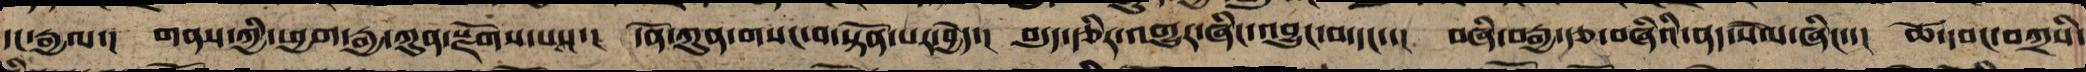དང་རྒྱལ་། གནས་ཀྱི་ཕྱག་རྒྱ་ཀུན་སྫོགས་པས་། དོན་ཀུན་གསང་བ་སྟོན་པར་བྱེད་། བདུད་རྩིར་འགྱུར་ཞིང་འབྱུང་བ་དང་་། བཞི་བརྒྱ་རྩ་བཞིའི་ནད་སེལ་ཞིང་་། ཚེ་དབང་བཀྲིས་
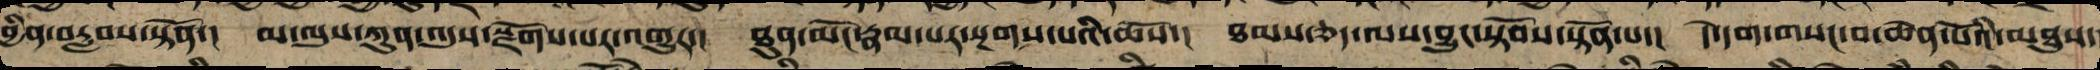བྱིན་་རླབས་སྟོན་། མ་ལུས་ཀུན་འདུས་སྫོགས་པར་གྱུར་། ཐུན་མོང་རྣམ་པར་སྔགས་པའི་མོས་། ཐམས་ཅད་ལས་བྱུང་སྟོབས་སྟོན་པ་། དེ་དག་གསང་བ་ཆེན་པོའི་མཐུས་
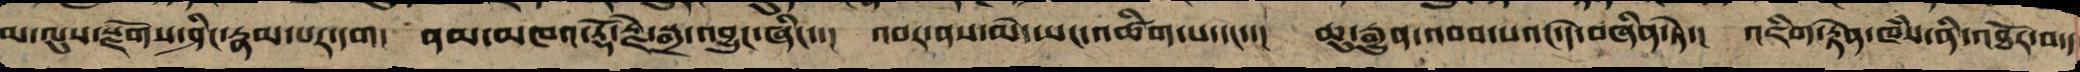མ་ལུས་སྫོགས་ཤིང་རྣམ་པར་དག། ནམ་མཁའ་རྡོ་རྗེ་སྒྲ་འབྱུང་ཞིང་་། འབར་ནས་མེ་ཡང་འཚིག་པ་དང་་། ཆུ་རྒྱུན་འབབ་པའང་དེ་བཞིན་ཏེ་། འཇིག་རྟེན་ཁཾས་ནི་འཐོར་བ་ད
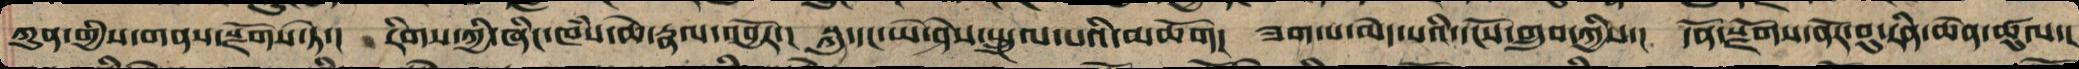ཀུན་གྱིས་གནས་སྫོགས་ཏེ་། རིགས་ཀྱི་ཞིང་ཁཾས་ཆེ་རྣལ་འབྱོར་། སྐུ་དང་ཡེ་ཤེས་སྤྲུལ་པའི་མཆོག། ཟག་པ་མེད་པའི་དངོས་གྲུབ་ཀྱིས་། དོན་སྫོགས་ནོར་བུ་རིན་ཆེན་ཚུལ་།
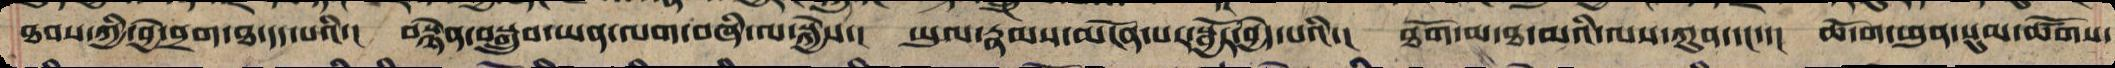ཐབས་ཀྱི་བྱེ་བྲག་ཐ་དད་པའི་། བསྙེན་བསྒྲུབ་ཡན་ལག་བཞི་ལ་སྐྱེས་། ཡུལ་རྣམས་མངོན་པར་སྦྱོར་བྱེད་པའི་། ཐོག་མ་ཐ་མའི་ལས་ཀུན་དང་་། ཆོ་ག་ཕུན་སུམ་ཚོགས་
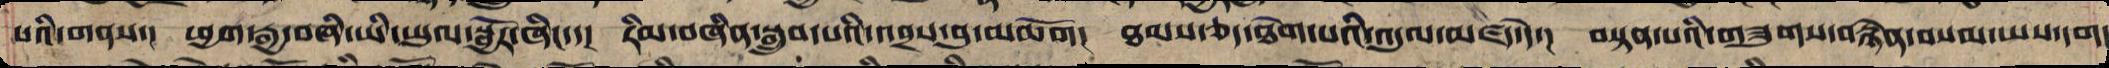པའི་གནས་། ཕྱག་རྒྱ་བཞི་ཡི་ཡུལ་སྦྱོར་ཞིང་་། རིམ་བཞིན་བསྒྲུབ་པའི་འབྲས་བུ་མཆོག། ཐམས་ཅད་ཐེག་པའི་འདུལ་མཛད་དེ་། བསྟན་པའི་གཟུགས་བརྙེན་བསམ་ཡས་དག།
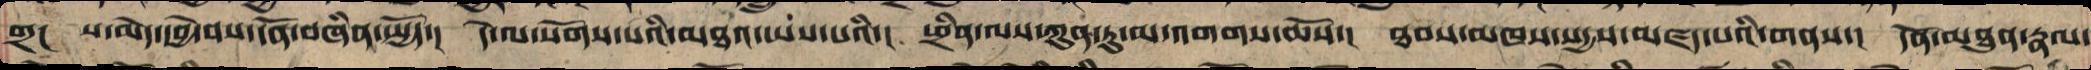གྲང ས་མེད་དབྱེ་བས་དོན་བཞིན་སྤྱོད་། དེ་ལ་སོགས་པའི་མཐའ་ཡས་པའི་། ཕྲིན་ལས་ཀུན་ཏུ་མ་འགགས་ཆོས་། ཐབས་མཁས་སདྱས་མཛད་པའི་གནས་། དོན་མཐུན་རྣལ་
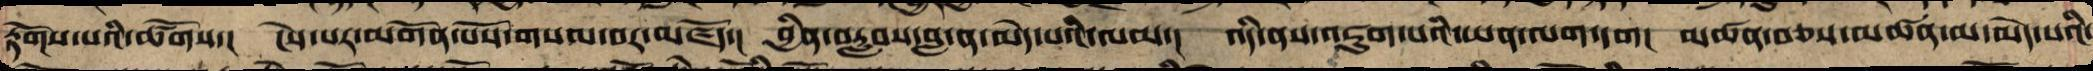རྟོགས་པའི་ཚོགས་། ངེས་པར་མགོན་པོས་བསལ་བར་མཛོད་། བྱིན་བརླབས་བླ་ན་མེད་པའི་ལམ་། འདི་ནས་འཇུག་པའི་ཡན་ལག་དག། མཚན་བཅས་མཚན་མ་མེད་པའི་
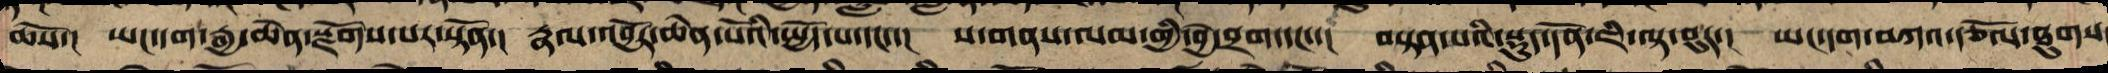ཆོས་། ཡང་དག་རྒྱ་ཆེན་སྫོགས་པར་སྟོན་། རྣལ་འབྱོར་ཆེན་པོའི་སྤྱོད་པ་དང་་། ས་གནས་ལམ་གྱི་བྱེ་བྲག་དང་་། བསྟན་པའི་བསྡུ་དོན་ཇི་ལྟ་བུར་། ཡང་དག་བཀའ་སྩོལ་ཐུགས
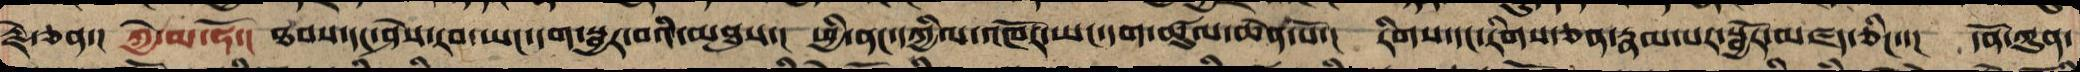རྗེ་ཅན་། ཀྱེ་མ་ཧོ་། ཐབས་དང་ཤེས་རབ་ཡང་དག་སྦྱར་བའི་མཐུས་། ཕྱི་ནང་དཀྱིལ་འཁོར་ཡང་དག་ཚུལ་ཆེན་པོ་། རིགས་དང་རིགས་ཅན་རྣམ་པར་སྦྱོར་མཛད་ཅིང་་། དོན་ཀུན་
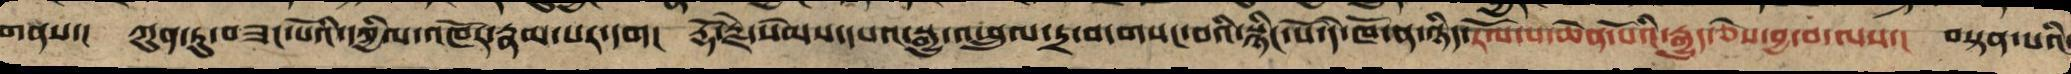གནས་། ཀུན་ཏུ་བཟང་པོའི་དཀྱིལ་འཁོར་རྣམ་པར་དག། རྡོ་རྗེ་སེམས་དཔའ་སྒྱུ་འཕྲུལ་དྲ་བ་གསང་བའི་སྙིང་པོ་དེ་ཁོ་ན་ཉིད་རོལ་པ་ཆེན་པོའི་རྒྱུད་ཅེས་བྱ་བ་ལས་། བསྟན་པའི་
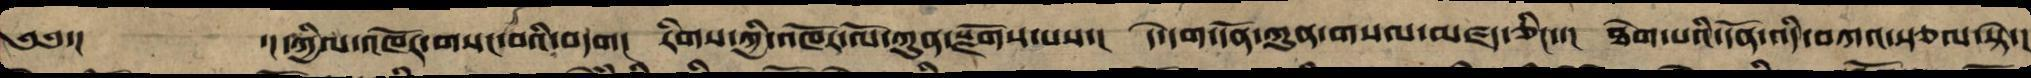༄༅་། ་།དཀྱིལ་འཁོར་གསང་བའི་བདག། རིགས་ཀྱི་འཁོར་ལོ་ཀུན་སྫོགས་པས་། དེ་དག་དོན་ཀུན་གསལ་མཛད་ཅིང་་། ཐེག་པའི་དོན་འདི་བཀའ་སྩལ་སྟེ་།
